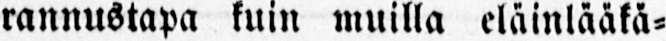rannustapa kuin muilla eläinlääkä-
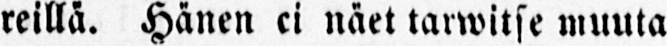reillä. Hänen ei näet tarwitse muuta
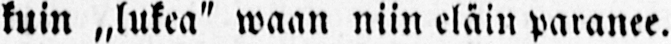kuin „lukea" waan niin eläin paranee.
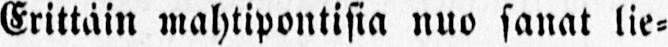Erittäin mahtipontisia nuo sanat lie-
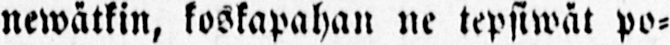newätkin, koskapahan ne tepsiwät po-
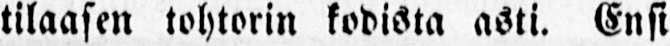tilaasen tohtorin kodista asti. Ensi
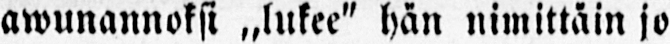awunannoksi „lukee" hän nimittäin jo
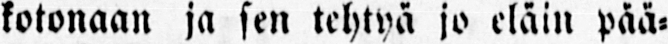kotonaan ja sen tehtyä jo eläin pää-
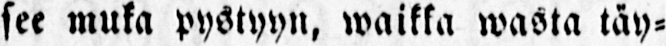see muka pystyyn, waikka wasta täy-
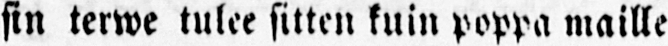sin terwe tulee sitten kuin poppa maille
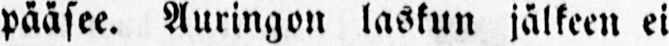pääsee. Auringon laskun jälkeen ei
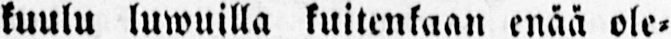kuulu luwuilla kuitenkaan enää ole-
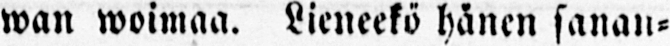wan woimaa. Lieneekö hänen sanan-
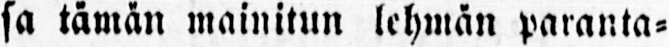sa tämän mainitun lehmän paranta-
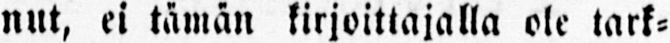nut, ei tämän kirjoittajalla ole tark-
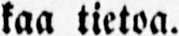kaa tietoa.
